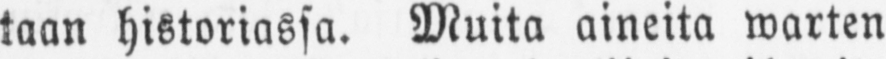taan historiassa. Muita aineita warten
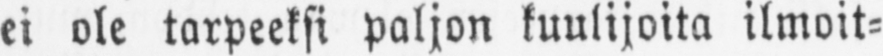ei ole tarpeeksi paljon kuulijoita ilmoit-
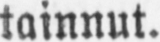tainnut.
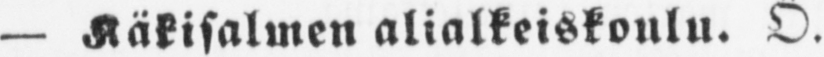— Käkisalmen alialkeiskoulu. Ö.
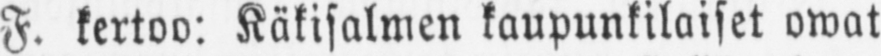F. kertoo: Käkisalmen kaupunkilaiset owat
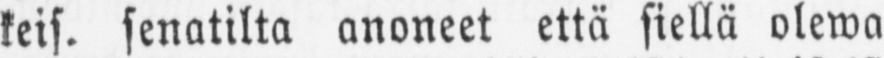keis. senatilta anoneet että siellä olewa
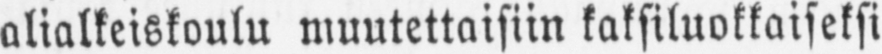alialkeiskoulu muutettaisiin kaksiluokkaiseksi
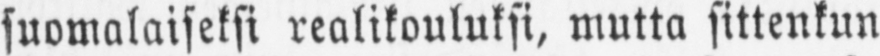suomalaiseksi realikouluksi, mutta sittenkun
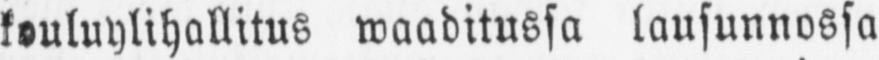kouluylihallitus waaditussa lausunnossa
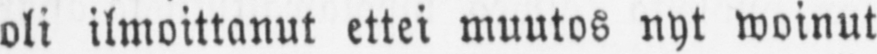oli ilmoittanut ettei muutos nyt woinut
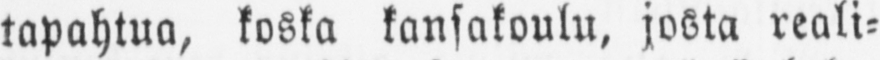tapahtua, koska kansakoulu, josta reali-
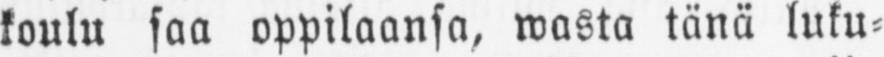koulu saa oppilaansa, wasta tänä luku-
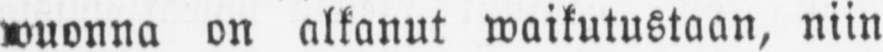wuonna on alkanut waikutustaan, niin
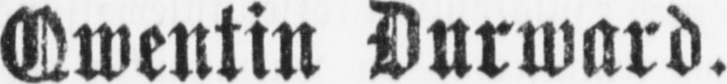Qwentin Durward.
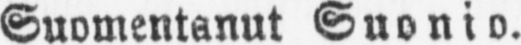Suomentanut Suonio.
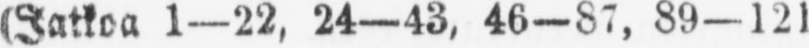(Jatkoa 1-22, 24-43, 46-87. 89-121
